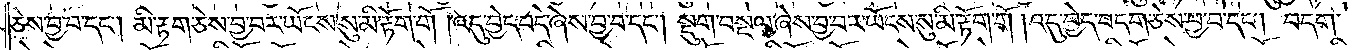ཅེས་བྱ་བ་དང༌། མི་རྟག་ཅེས་བྱ་བར་ཡོངས་སུ་མི་རྟོག་གོ །འདུ་བྱེད་བདེ་ཞེས་བྱ་བ་དང༌། སྡུག་བསྔལ་ཞེས་བྱ་བར་ཡོངས་སུ་མི་རྟོག་གོ །འདུ་བྱེད་བདག་ཅེས་བྱ་བ་དང༌། བདག་
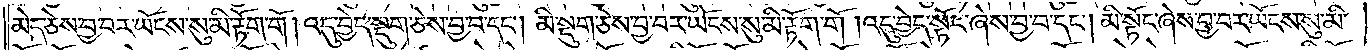མེད་ཅེས་བྱ་བར་ཡོངས་སུ་མི་རྟོག་གོ །འདུ་བྱེད་སྡུག་ཅེས་བྱ་བ་དང༌། མི་སྡུག་ཅེས་བྱ་བར་ཡོངས་སུ་མི་རྟོག་གོ །འདུ་བྱེད་སྟོང་ཞེས་བྱ་བ་དང༌། མི་སྟོང་ཞེས་བྱ་བར་ཡོངས་སུ་མི་
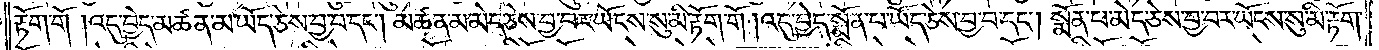རྟོག་གོ །འདུ་བྱེད་མཚན་མ་ཡོད་ཅེས་བྱ་བ་དང༌། མཚན་མ་མེད་ཅེས་བྱ་བར་ཡོངས་སུ་མི་རྟོག་གོ །འདུ་བྱེད་སྨོན་པ་ཡོད་ཅེས་བྱ་བ་དང༌། སྨོན་པ་མེད་ཅེས་བྱ་བར་ཡོངས་སུ་མི་རྟོག་
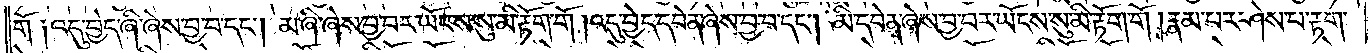གོ །འདུ་བྱེད་ཞི་ཞེས་བྱ་བ་དང༌། མ་ཞི་ཞེས་བྱ་བར་ཡོངས་སུ་མི་རྟོག་གོ །འདུ་བྱེད་དབེན་ཞེས་བྱ་བ་དང༌། མི་དབེན་ཞེས་བྱ་བར་ཡོངས་སུ་མི་རྟོག་གོ །རྣམ་པར་ཤེས་པ་རྟག་
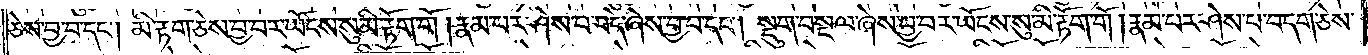ཅེས་བྱ་བ་དང༌། མི་རྟག་ཅེས་བྱ་བར་ཡོངས་སུ་མི་རྟོག་གོ །རྣམ་པར་ཤེས་པ་བདེ་ཞེས་བྱ་བ་དང༌། སྡུག་བསྔལ་ཞེས་བྱ་བར་ཡོངས་སུ་མི་རྟོག་གོ །རྣམ་པར་ཤེས་པ་བདག་ཅེས་
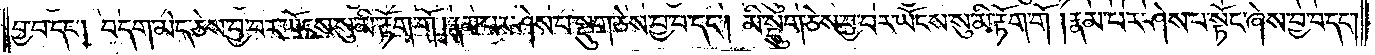བྱ་བ་དང༌། བདག་མེད་ཅེས་བྱ་བར་ཡོངས་སུ་མི་རྟོག་གོ །རྣམ་པར་ཤེས་པ་སྡུག་ཅེས་བྱ་བ་དང༌། མི་སྡུག་ཅེས་བྱ་བར་ཡོངས་སུ་མི་རྟོག་གོ །རྣམ་པར་ཤེས་པ་སྟོང་ཞེས་བྱ་བ་དང་
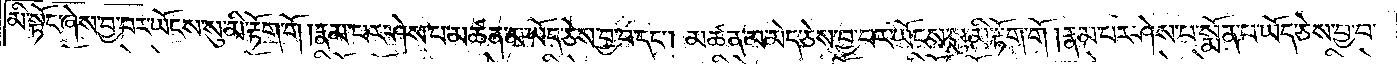མི་སྟོང་ཞེས་བྱ་བར་ཡོངས་སུ་མི་རྟོག་གོ །རྣམ་པར་ཤེས་པ་མཚན་མ་ཡོད་ཅེས་བྱ་བ་དང༌། མཚན་མ་མེད་ཅེས་བྱ་བར་ཡོངས་སུ་མི་རྟོག་གོ །རྣམ་པར་ཤེས་པ་སྨོན་པ་ཡོད་ཅེས་བྱ་བ་
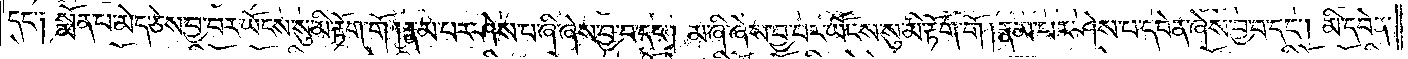དང༌༑ སྨོན་པ་མེད་ཅེས་བྱ་བར་ཡོངས་སུ་མི་རྟོག་གོ །རྣམ་པར་ཤེས་པ་ཞི་ཞེས་བྱ་བ་དང༌། མ་ཞི་ཞེས་བྱ་བར་ཡོངས་སུ་མི་རྟོག་གོ །རྣམ་པར་ཤེས་པ་དབེན་ཞེས་བྱ་བ་དང༌། མི་དབེན་
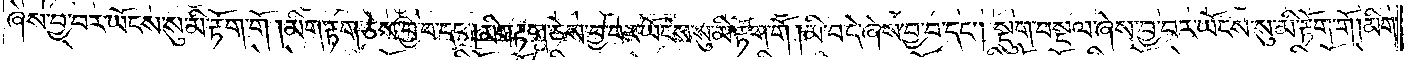ཞེས་བྱ་བར་ཡོངས་སུ་མི་རྟོག་གོ །མིག་རྟག་ཅེས་བྱ་བ་དང༌། མི་རྟག་ཅེས་བྱ་བར་ཡོངས་སུ་མི་རྟོག་གོ །མིག་བདེ་ཞེས་བྱ་བ་དང༌། སྡུག་བསྔལ་ཞེས་བྱ་བར་ཡོངས་སུ་མི་རྟོག་གོ །མིག་
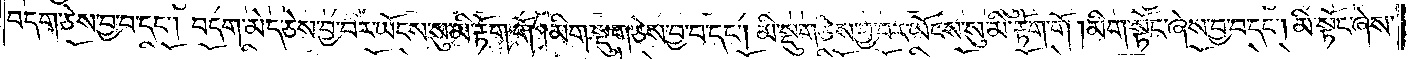བདག་ཅེས་བྱ་བ་དང༌། བདག་མེད་ཅེས་བྱ་བར་ཡོངས་སུ་མི་རྟོག་གོ །མིག་སྡུག་ཅེས་བྱ་བ་དང༌། མི་སྡུག་ཅེས་བྱ་བར་ཡོངས་སུ་མི་རྟོག་གོ །མིག་སྟོང་ཞེས་བྱ་བ་དང༌། མི་སྟོང་ཞེས་
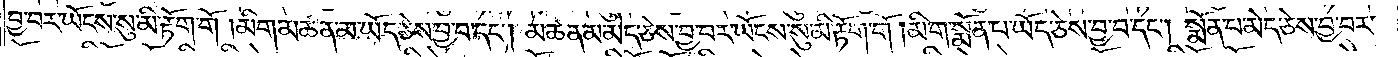བྱ་བར་ཡོངས་སུ་མི་རྟོག་གོ །མིག་མཚན་མ་ཡོད་ཅེས་བྱ་བ་དང༌། མཚན་མ་མེད་ཅེས་བྱ་བར་ཡོངས་སུ་མི་རྟོག་གོ །མིག་སྨོན་པ་ཡོད་ཅེས་བྱ་བ་དང༌། སྨོན་པ་མེད་ཅེས་བྱ་བར་
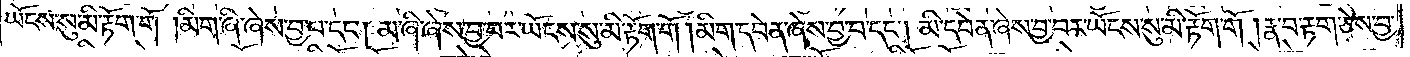ཡོངས་སུ་མི་རྟོག་གོ །མིག་ཞི་ཞེས་བྱ་བ་དང༌། མ་ཞི་ཞེས་བྱ་བར་ཡོངས་སུ་མི་རྟོག་གོ །མིག་དབེན་ཞེས་བྱ་བ་དང༌། མི་དབེན་ཞེས་བྱ་བར་ཡོངས་སུ་མི་རྟོག་གོ །རྣ་བ་རྟག་ཅེས་བྱ་
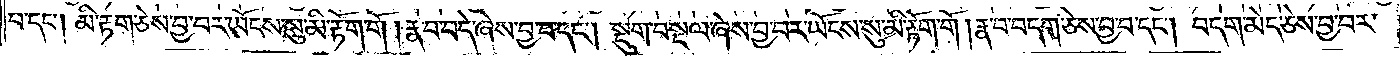བ་དང༌། མི་རྟག་ཅེས་བྱ་བར་ཡོངས་སུ་མི་རྟོག་གོ །རྣ་བ་བདེ་ཞེས་བྱ་བ་དང༌། སྡུག་བསྔལ་ཞེས་བྱ་བར་ཡོངས་སུ་མི་རྟོག་གོ །རྣ་བ་བདག་ཅེས་བྱ་བ་དང༌། བདག་མེད་ཅེས་བྱ་བར་
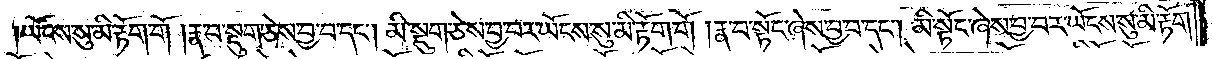ཡོངས་སུ་མི་རྟོག་གོ །རྣ་བ་སྡུག་ཅེས་བྱ་བ་དང༌། མི་སྡུག་ཅེས་བྱ་བར་ཡོངས་སུ་མི་རྟོག་གོ །རྣ་བ་སྟོང་ཞེས་བྱ་བ་དང༌། མི་སྟོང་ཞེས་བྱ་བར་ཡོངས་སུ་མི་རྟོག་
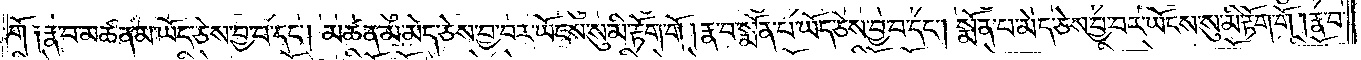གོ ༑རྣ་བ་མཚན་མ་ཡོད་ཅེས་བྱ་བ་དང༌། མཚན་མ་མེད་ཅེས་བྱ་བར་ཡོངས་སུ་མི་རྟོག་གོ །རྣ་བ་སྨོན་པ་ཡོད་ཅེས་བྱ་བ་དང༌། སྨོན་པ་མེད་ཅེས་བྱ་བར་ཡོངས་སུ་མི་རྟོག་གོ །རྣ་བ་
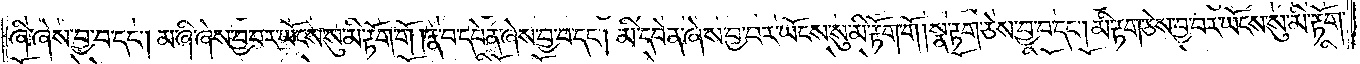ཞི་ཞེས་བྱ་བ་དང༌། མ་ཞི་ཞེས་བྱ་བར་ཡོངས་སུ་མི་རྟོག་གོ །རྣ་བ་དབེན་ཞེས་བྱ་བ་དང་མི་དབེན་ཞེས་བྱ་བར་ཡོངས་སུ་མི་རྟོག་གོ །སྣ་རྟག་ཅེས་བྱ་བ་དང༌། མི་རྟག་ཅེས་བྱ་བར་ཡོངས་སུ་མི་རྟོག་
